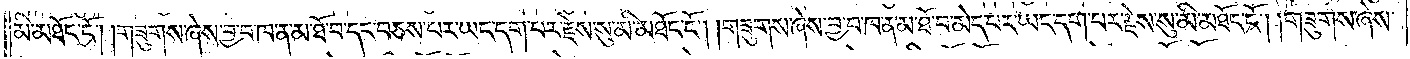མི་མཐོང་ངོ༌། །གཟུགས་ཞེས་བྱ་བ་ཁ་ན་མ་ཐོ་བ་དང་བཅས་པར་ཡང་དག་པར་རྗེས་སུ་མི་མཐོང་ངོ༌། །གཟུགས་ཞེས་བྱ་བ་ཁ་ན་མ་ཐོ་བ་མེད་པར་ཡང་དག་པར་རྗེས་སུ་མི་མཐོང་ངོ༌། །གཟུགས་ཞེས་
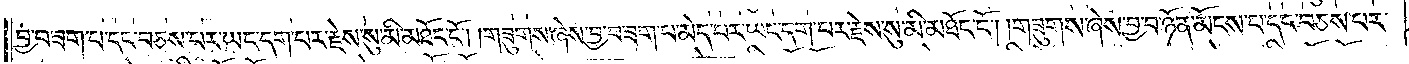བྱ་བ་ཟག་པ་དང་བཅས་པར་ཡང་དག་པར་རྗེས་སུ་མི་མཐོང་ངོ༌། །གཟུགས་ཞེས་བྱ་བ་ཟག་པ་མེད་པར་ཡང་དག་པར་རྗེས་སུ་མི་མཐོང་ངོ༌། །གཟུགས་ཞེས་བྱ་བ་ཉོན་མོངས་པ་དང་བཅས་པར་
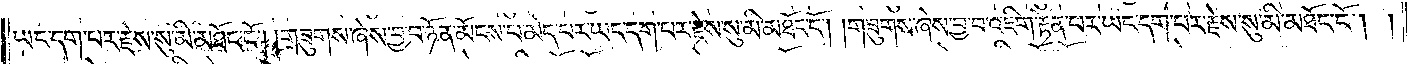ཡང་དག་པར་རྗེས་སུ་མི་མཐོང་ངོ༌། །གཟུགས་ཞེས་བྱ་བ་ཉོན་མོངས་པ་མེད་པར་ཡང་དག་པར་རྗེས་སུ་མི་མཐོང་ངོ༌། །གཟུགས་ཞེས་བྱ་བ་འཇིག་རྟེན་པར་ཡང་དག་པར་རྗེས་སུ་མི་མཐོང་ངོ༌། །
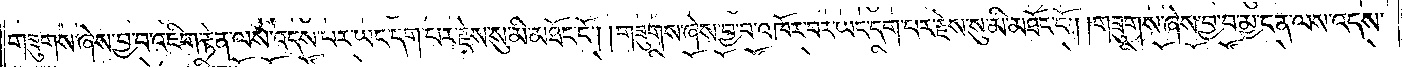གཟུགས་ཞེས་བྱ་བ་འཇིག་རྟེན་ལས་འདས་པར་ཡང་དག་པར་རྗེས་སུ་མི་མཐོང་ངོ༌། །གཟུགས་ཞེས་བྱ་བ་འཁོར་བར་ཡང་དག་པར་རྗེས་སུ་མི་མཐོང་ངོ༌། །གཟུགས་ཞེས་བྱ་བ་མྱ་ངན་ལས་འདས་
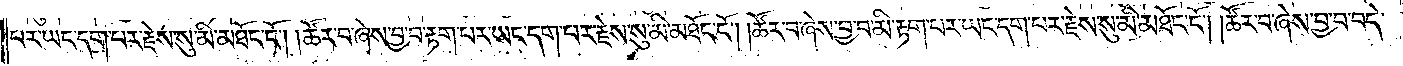པར་ཡང་དག་པར་རྗེས་སུ་མི་མཐོང་ངོ༌། །ཚོར་བ་ཞེས་བྱ་བ་རྟག་པར་ཡང་དག་པར་རྗེས་སུ་མི་མཐོང་ངོ༌། །ཚོར་བ་ཞེས་བྱ་བ་མི་རྟག་པར་ཡང་དག་པར་རྗེས་སུ་མི་མཐོང་ངོ༌། །ཚོར་བ་ཞེས་བྱ་བ་བདེ་
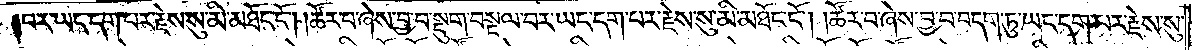བར་ཡང་དག་པར་རྗེས་སུ་མི་མཐོང་ངོ༌། །ཚོར་བ་ཞེས་བྱ་བ་སྡུག་བསྔལ་བར་ཡང་དག་པར་རྗེས་སུ་མི་མཐོང་ངོ༌། །ཚོར་བ་ཞེས་བྱ་བ་བདག་ཏུ་ཡང་དག་པར་རྗེས་སུ་
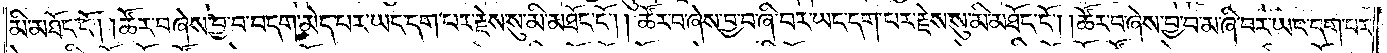མི་མཐོང་ངོ༌། །ཚོར་བ་ཞེས་བྱ་བ་བདག་མེད་པར་ཡང་དག་པར་རྗེས་སུ་མི་མཐོང་ངོ༌། །ཚོར་བ་ཞེས་བྱ་བ་ཞི་བར་ཡང་དག་པར་རྗེས་སུ་མི་མཐོང་ངོ༌། །ཚོར་བ་ཞེས་བྱ་བ་མ་ཞི་བར་ཡང་དག་པར་
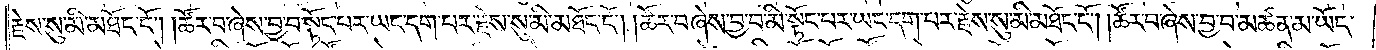རྗེས་སུ་མི་མཐོང་ངོ༌། །ཚོར་བ་ཞེས་བྱ་བ་སྟོང་པར་ཡང་དག་པར་རྗེས་སུ་མི་མཐོང་ངོ༌། །ཚོར་བ་ཞེས་བྱ་བ་མི་སྟོང་པར་ཡང་དག་པར་རྗེས་སུ་མི་མཐོང་ངོ༌། །ཚོར་བ་ཞེས་བྱ་བ་མཚན་མ་ཡོད་
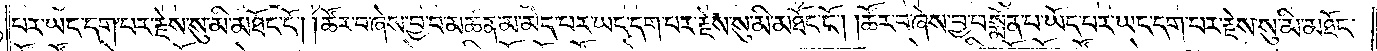པར་ཡང་དག་པར་རྗེས་སུ་མི་མཐོང་ངོ༌། །ཚོར་བ་ཞེས་བྱ་བ་མཚན་མ་མེད་པར་ཡང་དག་པར་རྗེས་སུ་མི་མཐོང་ངོ༌། །ཚོར་བ་ཞེས་བྱ་བ་སྨོན་པ་ཡོད་པར་ཡང་དག་པར་རྗེས་སུ་མི་མཐོང་
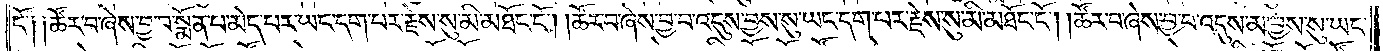ངོ༑ ༑ཚོར་བ་ཞེས་བྱ་བ་སྨོན་པ་མེད་པར་ཡང་དག་པར་རྗེས་སུ་མི་མཐོང་ངོ༌། །ཚོར་བ་ཞེས་བྱ་བ་འདུས་བྱས་སུ་ཡང་དག་པར་རྗེས་སུ་མི་མཐོང་ངོ༌། །ཚོར་བ་ཞེས་བྱ་བ་འདུས་མ་བྱས་སུ་ཡང་
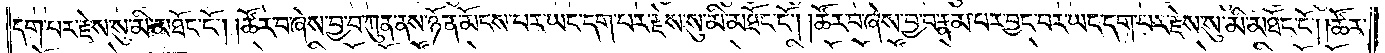དག་པར་རྗེས་སུ་མི་མཐོང་ངོ༌། །ཚོར་བ་ཞེས་བྱ་བ་ཀུན་ནས་ཉོན་མོངས་པར་ཡང་དག་པར་རྗེས་སུ་མི་མཐོང་ངོ༌། །ཚོར་བ་ཞེས་བྱ་བ་རྣམ་པར་བྱང་བར་ཡང་དག་པར་རྗེས་སུ་མི་མཐོང་ངོ༌། །ཚོར་
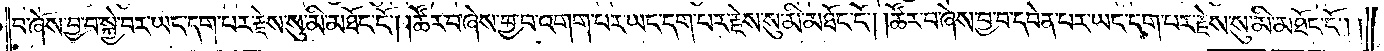བ་ཞེས་བྱ་བ་སྐྱེ་བར་ཡང་དག་པར་རྗེས་སུ་མི་མཐོང་ངོ༌། །ཚོར་བ་ཞེས་བྱ་བ་འགག་པར་ཡང་དག་པར་རྗེས་སུ་མི་མཐོང་ངོ༌། །ཚོར་བ་ཞེས་བྱ་བ་དབེན་པར་ཡང་དག་པར་རྗེས་སུ་མི་མཐོང་ངོ༌༎
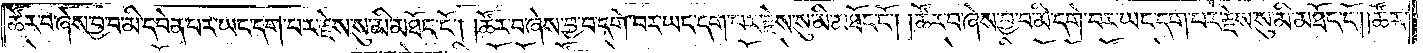ཚོར་བ་ཞེས་བྱ་བ་མི་དབེན་པར་ཡང་དག་པར་རྗེས་སུ་མི་མཐོང་ངོ༌། །ཚོར་བ་ཞེས་བྱ་བ་དགེ་བར་ཡང་དག་པར་རྗེས་སུ་མི་མཐོང་ངོ༌། །ཚོར་བ་ཞེས་བྱ་བ་མི་དགེ་བར་ཡང་དག་པར་རྗེས་སུ་མི་མཐོང་ངོ༌། །ཚོར་
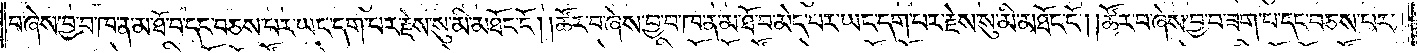བ་ཞེས་བྱ་བ་ཁ་ན་མ་ཐོ་བ་དང་བཅས་པར་ཡང་དག་པར་རྗེས་སུ་མི་མཐོང་ངོ༌། །ཚོར་བ་ཞེས་བྱ་བ་ཁ་ན་མ་ཐོ་བ་མེད་པར་ཡང་དག་པར་རྗེས་སུ་མི་མཐོང་ངོ༌། །ཚོར་བ་ཞེས་བྱ་བ་ཟག་པ་དང་བཅས་པར་
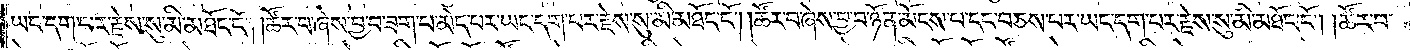ཡང་དག་པར་རྗེས་སུ་མི་མཐོང་ངོ༌། །ཚོར་བ་ཞེས་བྱ་བ་ཟག་པ་མེད་པར་ཡང་དག་པར་རྗེས་སུ་མི་མཐོང་ངོ༌། །ཚོར་བ་ཞེས་བྱ་བ་ཉོན་མོངས་པ་དང་བཅས་པར་ཡང་དག་པར་རྗེས་སུ་མི་མཐོང་ངོ༌། །ཚོར་བ་
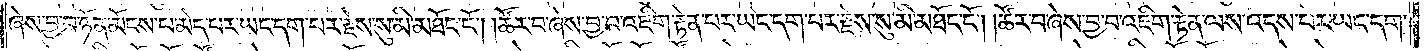ཞེས་བྱ་བ་ཉོན་མོངས་པ་མེད་པར་ཡང་དག་པར་རྗེས་སུ་མི་མཐོང་ངོ༌། །ཚོར་བ་ཞེས་བྱ་བ་འཇིག་རྟེན་པར་ཡང་དག་པར་རྗེས་སུ་མི་མཐོང་ངོ༌། །ཚོར་བ་ཞེས་བྱ་བ་འཇིག་རྟེན་ལས་འདས་པར་ཡང་དག་
